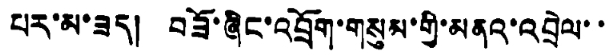པར་མ་ཟད། བཟོ་ཞིང་འབྲོག་གསུམ་གྱི་མནའ་འབྲེལ་་
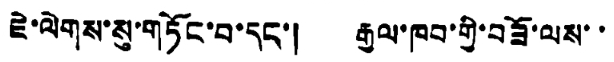ཇེ་ལེགས་སུ་གཏོང་བ་དང་། རྒྱལ་ཁབ་གྱི་བཟོ་ལས་་
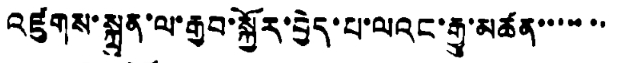འཛུགས་སྐྲུན་ལ་རྒྱབ་སྐྱོར་བྱེད་པ་ལའང་རྒྱུ་མཚན་་་་་་་
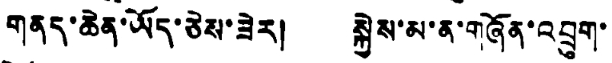གནད་ཆེན་ཡོད་ཅེས་ཟེར། སྐྱེས་མ་ན་གཞོན་འབྲུག་
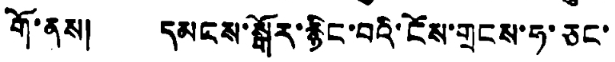གོ་ནས། དམངས་སྒོར་རྙིང་བའི་ངོས་གྲངས་ཧ་ཅང་
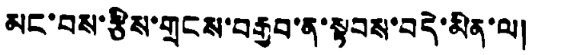མང་བས་རྩིས་གྲངས་བརྒྱབ་ན་སྟབས་བདེ་མིན་ལ།
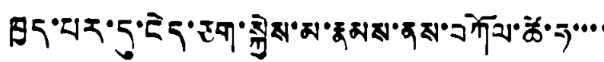ཁྱད་པར་དུ་ངེད་ཅག་སྐྱེས་མ་རྣམས་ནས་བཀོལ་ཚེ་ཧ་་་་
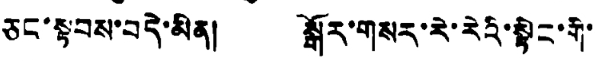ཅང་སྟབས་བདེ་མིན། སྒོར་གསར་རེ་རེའི་སྟེང་གི་
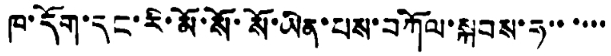ཁ་དོག་དང་རི་མོ་སོ་སོ་ཡིན་པས་བཀོལ་སྐབས་ཧ་་་་་་
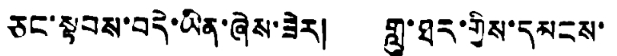ཅང་སྟབས་བདེ་ཡིན་ཞེས་ཟེར། གླུ་ཐར་གྱིས་དམངས་
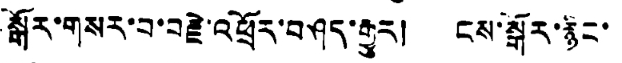སྒོར་གསར་བ་བརྗེ་འཕྲོར་བཤད་རྒྱུར། ངས་སྒོར་རྙིང་
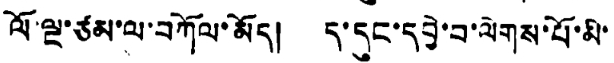ལོ་ལྔ་ཙམ་ལ་བཀོལ་མོད། ད་དུང་དབྱེ་བ་ལེགས་པོ་མི་
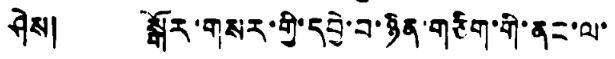ཤེས། སྒོར་གསར་གྱི་དབྱེ་བ་ཉིན་གཅིག་གི་ནང་ལ་
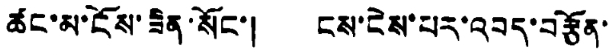ཚང་མ་ངོས་ཟིན་སོང་། ངས་ངེས་པར་འབད་བརྩོན་
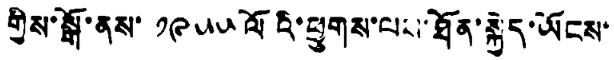གྱིས་སྒོ་ནས་ ༡༩༥༥ ལོའི་ཕྱུགས་ལས་ཐོན་སྐྱེད་ཡོངས་
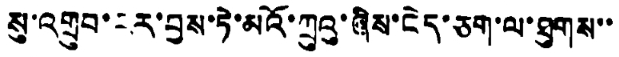སུ་འགྲུབ་པར་བྱས་ཏེ་མའོ་ཀྲུའུ་ཞིས་ངེད་ཅག་ལ་ཐུགས་་
